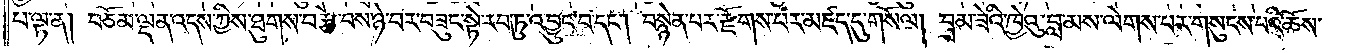པ་ལྟ་ན། བཅོམ་ལྡན་འདས་ཀྱིས་ཐུགས་བརྩེ་བས་ཉེ་བར་བཟུང་སྟེ་རབ་ཏུ་འབྱུང་བ་དང༌། བསྙེན་པར་རྫོགས་པར་མཛད་དུ་གསོལ། བྲམ་ཟེའི་ཁྱེའུ་བླ་མས་ལེགས་པར་གསུངས་པའི་ཆོས་
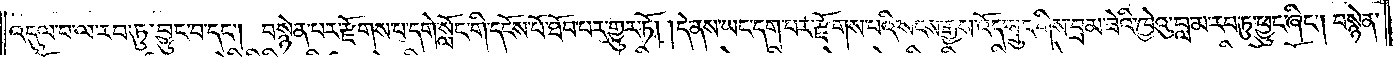འདུལ་བ་ལ་རབ་ཏུ་བྱུང་བ་དང༌། བསྙེན་པར་རྫོགས་པ་དགེ་སློང་གི་དངོས་པོ་ཐོབ་པར་གྱུར་ཏོ། །དེ་ནས་ཡང་དག་པར་རྫོགས་པའི་སངས་རྒྱས་འོད་སྲུང་གིས་བྲམ་ཟེའི་ཁྱེའུ་བླ་མ་རབ་ཏུ་ཕྱུང་ཞིང༌། བསྙེན་
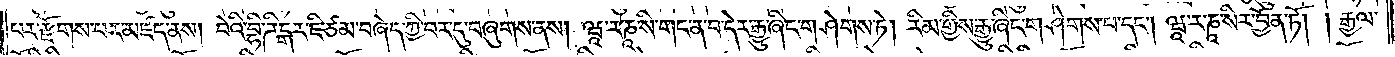པར་རྫོགས་པར་མཛད་ནས། བེའི་བྷི་ཌིངྒར་ཇི་ཙམ་བཞེད་ཀྱི་བར་དུ་བཞུགས་ནས། ཝཱ་ར་ཎཱ་སི་གང་ན་བ་དེར་རྒྱུ་ཞིང་གཤེགས་ཏེ། རིམ་གྱིས་རྒྱུ་ཞིང་གཤེགས་པ་དང༌། ཝཱ་ར་ནཱ་སེར་བྱོན་ཏོ། །རྒྱལ་
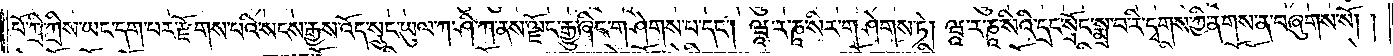པོ་ཀྲི་ཀྲིས་ཡང་དག་པར་རྫོགས་པའི་སངས་རྒྱས་འོད་སྲུང་ཡུལ་ཀ་ཤི་ཀ་ནས་ལྗོང་རྒྱུ་ཞིང་གཤེགས་པ་དང༌། ཝཱ་ར་ཎཱ་སིར་གཤེགས་ཏེ། ཝཱ་ར་ཎཱ་སིའི་དྲང་སྲོང་སྨྲ་བ་རི་དྭགས་ཀྱི་ནགས་ན་བཞུགས་སོ། །
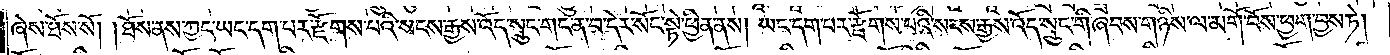ཞེས་ཐོས་སོ། །ཐོས་ནས་ཀྱང་ཡང་དག་པར་རྫོགས་པའི་སངས་རྒྱས་འོད་སྲུང་གང་ན་བ་དེར་སོང་སྟེ་ཕྱིན་ནས། ཡང་དག་པར་རྫོགས་པའི་སངས་རྒྱས་འོད་སྲུང་གི་ཞབས་གཉིས་ལ་མགོ་བོས་ཕྱག་བྱས་ཏེ།
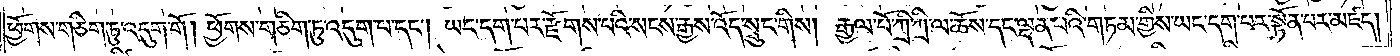ཕྱོགས་གཅིག་ཏུ་འདུག་གོ །ཕྱོགས་གཅིག་ཏུ་འདུག་པ་དང༌། ཡང་དག་པར་རྫོགས་པའི་སངས་རྒྱས་འོད་སྲུང་གིས། རྒྱལ་པོ་ཀྲི་ཀྲི་ལ་ཆོས་དང་ལྡན་པའི་གཏམ་གྱིས་ཡང་དག་པར་སྟོན་པར་མཛད།
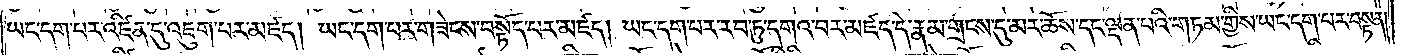ཡང་དག་པར་འཛིན་དུ་འཇུག་པར་མཛད། ཡང་དག་པར་གཟེངས་བསྟོད་པར་མཛད། ཡང་དག་པར་རབ་ཏུ་དགའ་བར་མཛད་དེ་རྣམ་གྲངས་དུ་མར་ཆོས་དང་ལྡན་པའི་གཏམ་གྱིས་ཡང་དག་པར་བསྟན།
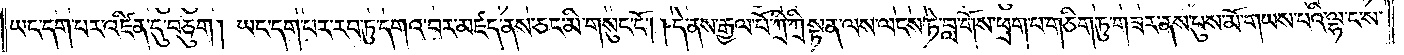ཡང་དག་པར་འཛིན་དུ་བཅུག། ཡང་དག་པར་རབ་ཏུ་དགའ་བར་མཛད་ནས་ཅང་མི་གསུང་ངོ༌། །དེ་ནས་རྒྱལ་པོ་ཀྲི་ཀྲི་སྟན་ལས་ལངས་ཏེ་བླ་གོས་ཕྲག་པ་གཅིག་ཏུ་གཟར་ནས་པུས་མོ་གཡས་པའི་ལྷ་ང་ས་
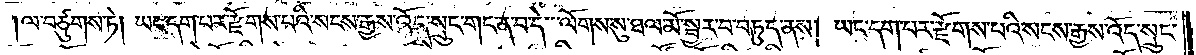ལ་བཙུགས་ཏེ། ཡང་དག་པར་རྫོགས་པའི་སངས་རྒྱས་འོད་སྲུང་གང་ན་བ་དེ་ལོགས་སུ་ཐལ་མོ་སྦྱར་བ་བཏུད་ནས། ཡང་དག་པར་རྫོགས་པའི་སངས་རྒྱས་འོད་སྲུང
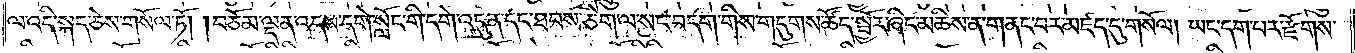ལ་འདི་སྐད་ཅེས་གསོལ་ཏོ། །བཅོམ་ལྡན་འདས་དགེ་སློང་གི་དགེ་འདུན་དང་ཐབས་ཅིག་ལ་སང་བདག་གིས་གདུགས་ཚོད་སྦྱོར་ཞིང་མཆིས་ན་གནང་བར་མཛད་དུ་གསོལ། ཡང་དག་པར་རྫོགས་
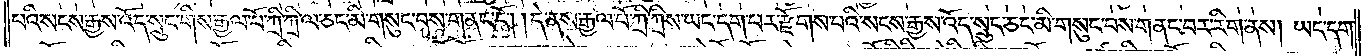པའི་སངས་རྒྱས་འོད་སྲུང་གིས་རྒྱལ་པོ་ཀྲི་ཀྲི་ལ་ཅང་མི་གསུང་བས་གནང་ངོ༌། །དེ་ནས་རྒྱལ་པོ་ཀྲི་ཀྲིས་ཡང་དག་པར་རྫོགས་པའི་སངས་རྒྱས་འོད་སྲུང་ཅང་མི་གསུང་བས་གནང་བར་རིག་ནས། ཡང་དག་
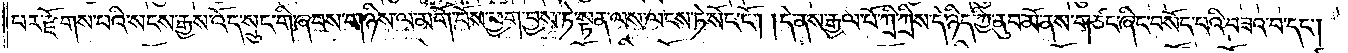པར་རྫོགས་པའི་སངས་རྒྱས་འོད་སྲུང་གི་ཞབས་གཉིས་ལ་མགོ་བོས་ཕྱག་བྱས་ཏེ་སྟན་ལས་ལངས་ཏེ་སོང་ངོ༌། །དེ་ནས་རྒྱལ་པོ་ཀྲི་ཀྲིས་དེ་ཉིད་ཀྱི་ནུབ་མོ་ནས་གཙང་ཞིང་བསོད་པའི་བཟའ་བ་དང༌།
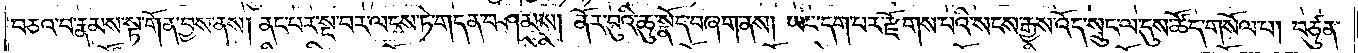བཅའ་བ་རྣམས་སྟ་གོན་བྱས་ནས། ནང་པར་སྔ་བར་ལངས་ཏེ་གདན་བཤམས། ནོར་བུའི་ཆུ་སྣོད་བཞག་ནས། ཡང་དག་པར་རྫོགས་པའི་སངས་རྒྱས་འོད་སྲུང་ལ་དུས་ཚོད་གསོལ་པ། བཙུན་
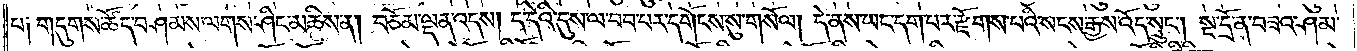པ། གདུགས་ཚོད་བཤམས་ལགས་ཤིང་མཆིས་ན། བཅོམ་ལྡན་འདས། ད་དེའི་དུས་ལ་བབ་པར་དགོངས་སུ་གསོལ། དེ་ནས་ཡང་དག་པར་རྫོགས་པའི་སངས་རྒྱས་འོད་སྲུང༌། སྔ་དྲོ་ན་བཟའ་ཤམ་
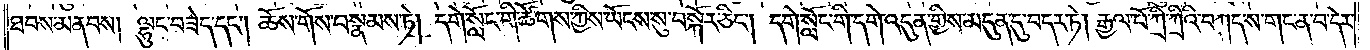ཐབས་མནབས། ལྷུང་བཟེད་དང༌། ཆོས་གོས་བསྣམས་ཏེ། དགེ་སློང་གི་ཚོགས་ཀྱིས་ཡོངས་སུ་བསྐོར་ཅིང༌། དགེ་སློང་གི་དགེ་འདུན་གྱིས་མདུན་དུ་བདར་ཏེ། རྒྱལ་པོ་ཀྲི་ཀྲིའི་བཀད་ས་གང་ན་བ་དེར་
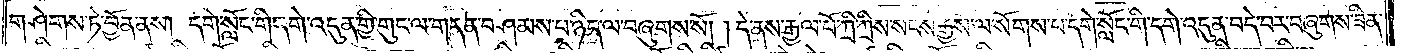གཤེགས་ཏེ་བྱོན་ནས། དགེ་སློང་གི་དགེ་འདུན་གྱི་གུང་ལ་གདན་བཤམས་པ་ཉིད་ལ་བཞུགས་སོ། །དེ་ནས་རྒྱལ་པོ་ཀྲི་ཀྲིས་སངས་རྒྱས་ལ་སོགས་པ་དགེ་སློང་གི་དགེ་འདུན་བདེ་བར་བཞུགས་ཟིན་
